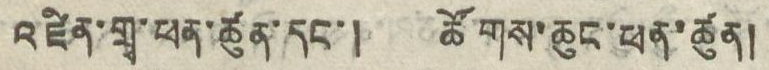འཛིན་གྲྭ་ཕན་ཚུན་དང་། ཚོགས་ཆུང་ཕུན་ཚུན།
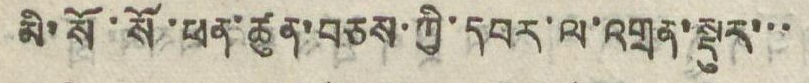མི་སོ་སོ་ཕན་ཚུན་བཅས་ཀྱི་དབར་ལ་འགྲན་སྡུར་་་
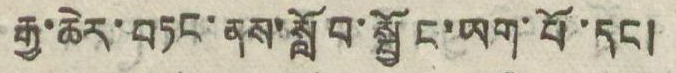རྒྱ་ཆེར་བཏང་ནས་སློབ་སྦྱོང་ཡག་པོ་དང།
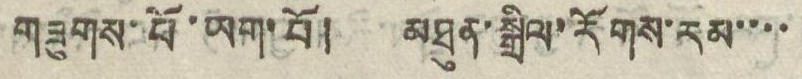གཟུགས་པོ་ཡག་པོ། མཐུན་སྒྲིལ་རོགས་རམ་་་་
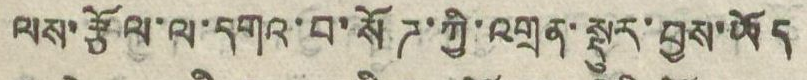ལས་རྩོལ་ལ་དགའ་བ་སོཌ་ཀྱི་འགྲན་སྡུར་བྱས་ཡོད
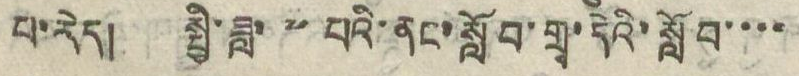པ་རེད། སྤྱི་ཟླ་ ༧ པའི་ནང་སློབ་གྲྭ་དེའི་སློབ་་་་
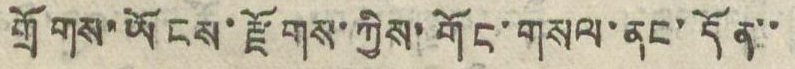གྲོགས་ཡོངས་རྫོགས་ཀྱིས་གོང་གསལ་ནང་དོན་་
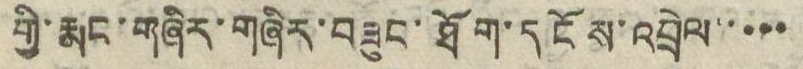གྱི་རྨང་གཞིར་གཞིར་བཟུང་ཐོག་དངོས་འབྲེལ་་་་་
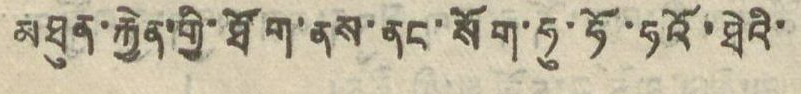མཐུན་རྐྱེན་ཐོག་ནས་ནང་སོག་ཧུ་ཧོ་ཧའོ་ཐེའི་
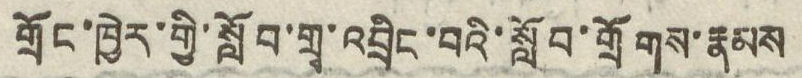གྲོང་ཁྱེར་གྱི་སློབ་གྲྭ་འབྲིང་བའི་སློབ་གྲོགས་རྣམས
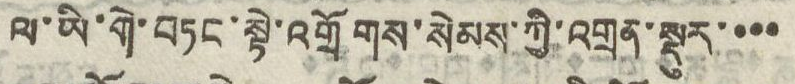ལ་ཡི་གེ་བཏང་སྟེ་འགྲོགས་སེམས་ཀྱི་འགྲན་སྡུར་་་་
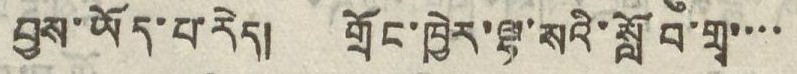བྱས་ཡོད་པ་རེད། གྲོང་ཁྱེར་ལྷ་སའི་སློབ་གྲྭ་་་་
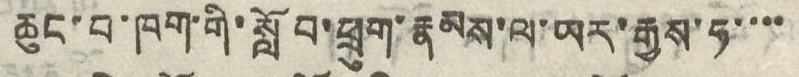ཆུང་བ་ཁག་གུ་སློབ་ཕྲུག་རྣམས་ལ་ཡར་རྒྱས་ཧ་་་་
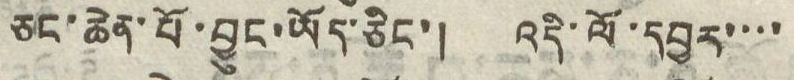ཅང་ཆེན་པོ་བྱུང་ཡོད་ཅིང་། འདི་ལོ་དབྱར་་་་
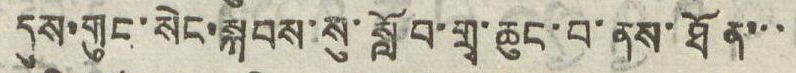དུས་གུང་སེང་སྐབས་སུ་སློབ་གྲྭ་ཆུང་བ་ནས་ཐོན་་་
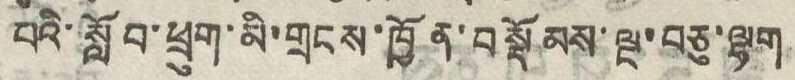པའི་སློབ་ཕྲུག་མི་གྲངས་ཁྱོན་བསྡོམས་ལྔ་བཅུ་ལྷག
